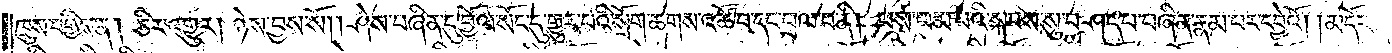ཁྲུས་བགྱིས་ན། ཅིར་འགྱུར། ཉེས་བྱས་སོ། །ཤེས་བཞིན་དུ་བྱོལ་སོང་དུ་གྱུར་པའི་སྲོག་ཆགས་འཚོ་བ་དང་བྲལ་བ་ནི།_(ཕས་ཕམ)་པའི་སྐབས་སུ་བཤད་པ་བཞིན་རྣམ་པར་དབྱེའོ། །མདོར་(ན།)
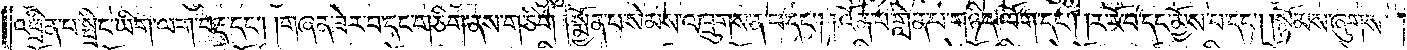འཕྲིན་པ་སྤྲིང་ཡིག་ལག་བརྡ་དང༌། །གཞན་ཟེར་བ་དང་གཅིག་ནས་གཅིག །སྨྱོན་པ་སེམས་འཁྲུགས་ན་བ་དང༌། །འོན་པ་གླེན་པ་གཉིད་ལོག་དང༌། །ར་རོ་བ་དང་མྱོས་པ་དང༌། །སྙོམས་ཞུགས་
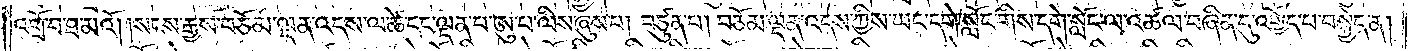འགྲོ་བ་ཐ་མའོ། །སངས་རྒྱས་བཅོམ་ལྡན་འདས་ལ་ཚེ་དང་ལྡན་པ་ཨུ་པ་ལིས་ཞུས་པ། བཙུན་པ། བཅོམ་ལྡན་འདས་ཀྱིས་ཡང་དགེ་སློང་གིས་དགེ་སློང་ལ་འཚལ་བཞིན་དུ་འགྱོད་པ་བསྐྱེད་ན།
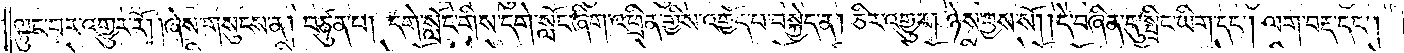ལྟུང་བར་འགྱུར་རོ། །ཞེས་གསུངས་ན། བཙུན་པ། དགེ་སློང་གིས་དགེ་སློང་ཞིག་འཕྲིན་གྱིས་འགྱོད་པ་བསྐྱེད་ན། ཅིར་འགྱུར། ཉེས་བྱས་སོ། །དེ་བཞིན་དུ་སྤྲིང་ཡིག་དང༌། ལག་བརྡ་དང༌།
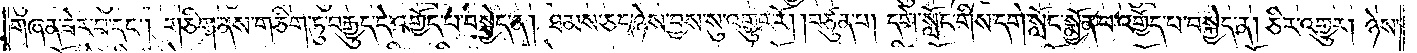གཞན་ཟེར་བ་དང༌། གཅིག་ནས་གཅིག་ཏུ་བརྒྱུད་དེ་འགྱོད་པ་བསྐྱེད་ན། ཐམས་ཅད་ཉེས་བྱས་སུ་འགྱུར་རོ། །བཙུན་པ། དགེ་སློང་གིས་དགེ་སློང་སྨྱོན་པ་འགྱོད་པ་བསྐྱེད་ན། ཅིར་འགྱུར། ཉེས་
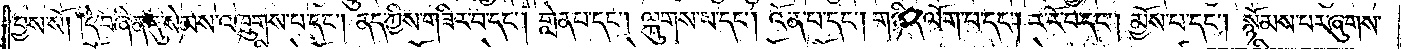བྱས་སོ། །དེ་བཞིན་དུ་སེམས་འཁྲུགས་པ་དང༌། ནད་ཀྱིས་གཟིར་བ་དང༌། གླེན་པ་དང༌། ལྐུགས་པ་དང༌། འོན་པ་དང༌། གཉིད་ལོག་པ་དང༌། ར་རོ་བ་དང༌། མྱོས་པ་དང༌། སྙོམས་པར་ཞུགས་
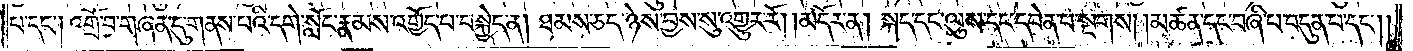པ་དང༌། འགྲོ་བ་གཞན་དུ་གནས་པའི་དགེ་སློང་རྣམས་འགྱོད་པ་བསྐྱེད་ན། ཐམས་ཅད་ཉེས་བྱས་སུ་འགྱུར་རོ།    །མདོར་ན། སྐད་དང་ལུས་དང་དབེན་པ་སྔགས། །མཚན་དང་བཞི་པ་བདུན་པ་དང༌། །
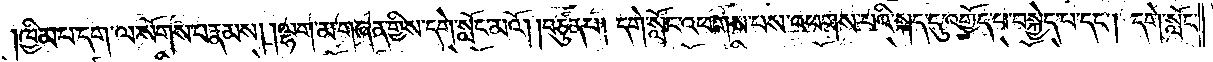ཁྱིམ་པ་དག་ལ་སོགས་པ་རྣམས། །ལྷག་མ་གཞན་གྱིས་དགེ་སློང་མའོ། །བཙུན་པ། དགེ་སློང་འཕགས་པས་འཕགས་པའི་སྐད་དུ་འགྱོད་པ་བསྐྱེད་པ་དང༌། དགེ་སློང་
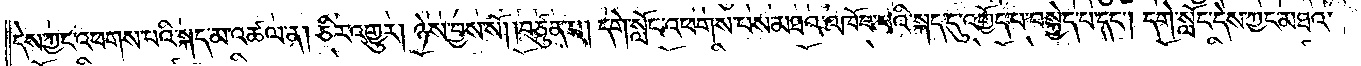དེས་ཀྱང་འཕགས་པའི་སྐད་མ་འཚལ་ན། ཅིར་འགྱུར། ཉེས་བྱས་སོ། །བཙུན་པ། དགེ་སློང་འཕགས་པས་མཐའ་འཁོབ་པའི་སྐད་དུ་འགྱོད་པ་བསྐྱེད་པ་དང༌། དགེ་སློང་དེས་ཀྱང་མཐའ་
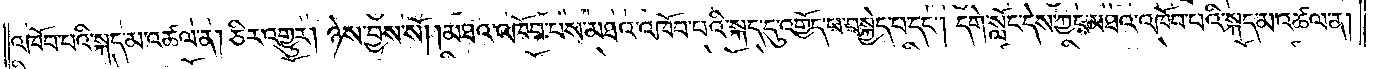འཁོབ་པའི་སྐད་མ་འཚལ་ན། ཅིར་འགྱུར། ཉེས་བྱས་སོ། །མཐའ་འཁོབ་པས་མཐའ་འཁོབ་པའི་སྐད་དུ་འགྱོད་པ་བསྐྱེད་པ་དང༌། དགེ་སློང་དེས་ཀྱང་མཐའ་འཁོབ་པའི་སྐད་མ་འཚལ་ན།
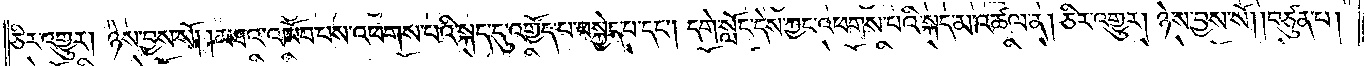ཅིར་འགྱུར། ཉེས་བྱས་སོ། །མཐའ་འཁོབ་པས་འཕགས་པའི་སྐད་དུ་འགྱོད་པ་བསྐྱེད་པ་དང༌། དགེ་སློང་དེས་ཀྱང་འཕགས་པའི་སྐད་མ་འཚལ་ན། ཅིར་འགྱུར། ཉེས་བྱས་སོ། །བཙུན་པ།
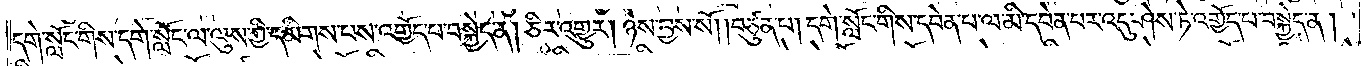དགེ་སློང་གིས་དགེ་སློང་ལ་ལུས་ཀྱི་དམིགས་པས་འགྱོད་པ་བསྐྱེད་ན། ཅིར་འགྱུར། ཉེས་བྱས་སོ། །བཙུན་པ། དགེ་སློང་གིས་དབེན་པ་ལ་མི་དབེན་པར་འདུ་ཤེས་ཏེ་འགྱོད་པ་བསྐྱེད་ན།
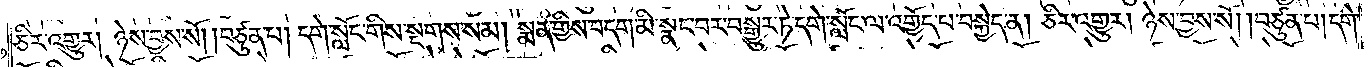ཅིར་འགྱུར། ཉེས་བྱས་སོ། །བཙུན་པ། དགེ་སློང་གིས་སྔགས་སམ། སྨན་གྱིས་བདག་མི་སྣང་བར་བསྒྱུར་ཏེ་དགེ་སློང་ལ་འགྱོད་པ་བསྐྱེད་ན། ཅིར་འགྱུར། ཉེས་བྱས་སོ། །བཙུན་པ། དགེ་
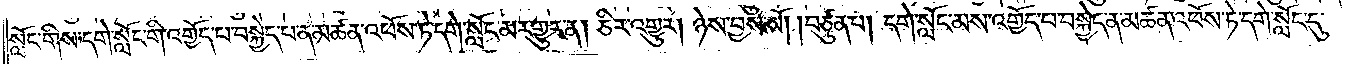སློང་གིས་དགེ་སློང་གི་འགྱོད་པ་བསྐྱེད་པ་ན་མཚན་འཕོས་ཏེ་དགེ་སློང་མར་འགྱུར་ན། ཅིར་འགྱུར། ཉེས་བྱས་སོ། །བཙུན་པ། དགེ་སློང་མས་འགྱོད་པ་བསྐྱེད་ན་མཚན་འཕོས་ཏེ་དགེ་སློང་དུ་
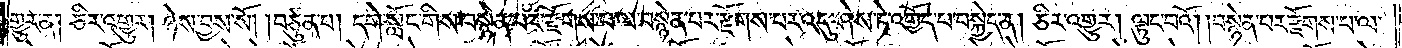གྱུར་ན། ཅིར་འགྱུར། ཉེས་བྱས་སོ། །བཙུན་པ། དགེ་སློང་གིས་བསྙེན་པར་རྫོགས་པ་ལ་བསྙེན་པར་རྫོགས་པར་འདུ་ཤེས་ཏེ་འགྱོད་པ་བསྐྱེད་ན། ཅིར་འགྱུར། ལྟུང་བའོ། །བསྙེན་པར་རྫོགས་པ་ལ་
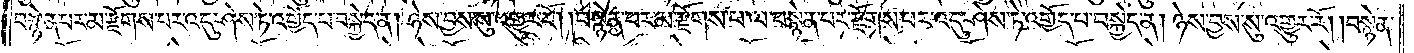བསྙེན་པར་མ་རྫོགས་པར་འདུ་ཤེས་ཏེ་འགྱོད་པ་བསྐྱེད་ན། ཉེས་བྱས་སུ་འགྱུར་རོ། །བསྙེན་པར་མ་རྫོགས་པ་ལ་བསྙེན་པར་རྫོགས་པར་འདུ་ཤེས་ཏེ་འགྱོད་པ་བསྐྱེད་ན། ཉེས་བྱས་སུ་འགྱུར་རོ། །བསྙེན་
